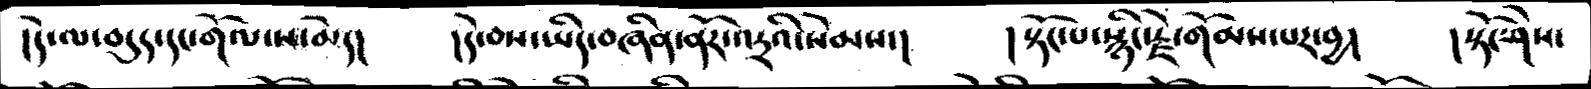།དེ་ལ་བདུད་དང་གོལ་ས་མེད།   །དེ་བས་ཡིད་བཞིན་ནོར་འདྲའི་སེམས་།     །སྟོང་པ་སྙིང་རྫེ་གོམས་པར་བྱ།    །སྟོང་ཤེས་
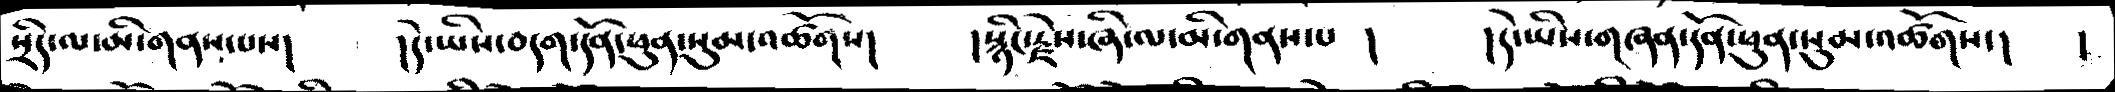སྲིད་ལ་མི་གནས་པས།   །དེ་ཡིས་བདག་དོན་ཕུན་སུམ་འཚོགས།    །སྙིང་རྫེས་ཞི་ལ་མི་གནས་པ །    །དེ་ཡིས་གཞན་དོན་ཕུན་སུམ་འཚོགས་།    །
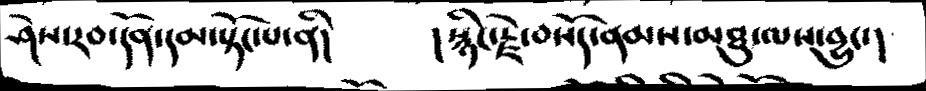ཤེས་རབ་དོན་དམ་སྟོང་པ་ནི།      །སྙིང་རྗེ་བསོད་ནམས་མཐུ་ལས་བྱུང་།
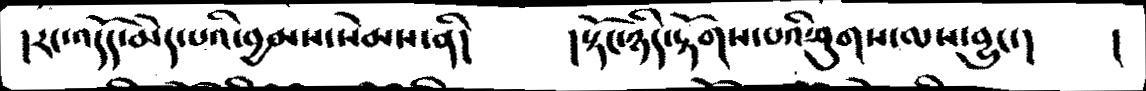།རང་འདོད་མེད་པའི་བྱམས་སེམས་ནི།    །སྟོང་ཉིད་རྟོགས་པའི་ཤུགས་ལས་བྱུང་།   །
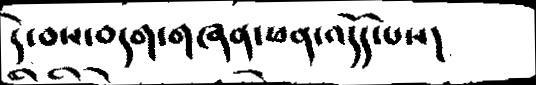དེ་བས་བདག་གཞན་ཕན་འདོད་པས།
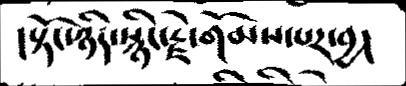།སྟོང་ཉིད་སྙིང་རྗེ་གོམས་པར་བྱ།
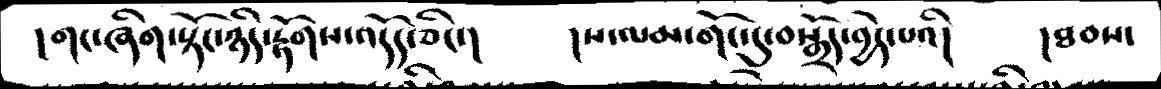།གང་ཞིག་སྟོང་ཉིད་རྟོགས་འདོད་ཅིང་།    །ས་ལམ་གོང་དུ་བསྒྲོད་བྱེད་པའི།   །ཐབས་
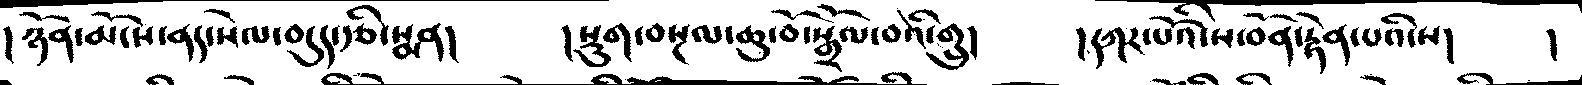། ཉོན་མོངས་ནད་སེལ་བདུད་རྩི་སྨན།    །སྡུག་བསྔལ་ཆུ་བོ་སྒྲོལ་བའི་གྲུ།    །དཀར་པོའི་ས་བོན་རྟེན་པའི་ས།    །
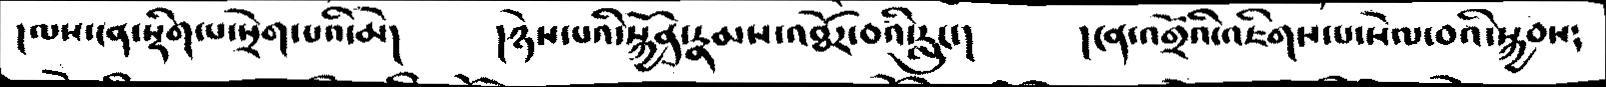།ལས་ངན་སྡིག་པ་སྲེག་པའི་མེ།   །ཉེས་པའི་སྐྱོན་རྣམས་འཐོར་བའི་རླུང་།   །ངན་འགྲོའི་འཇིགས་པ་སེལ་བའི་སྐྱབས༴
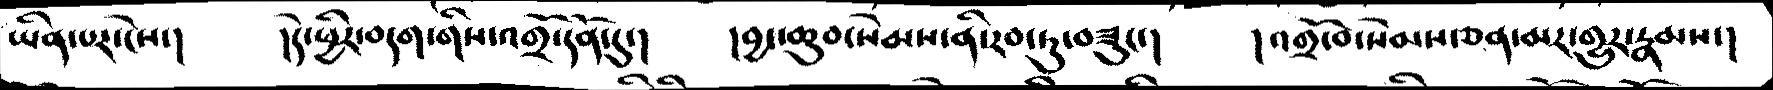ཡིན་པར་ངེས་།   །དེ་ཕྱིར་བདག་གིས་འགྲོ་དོན་དུ་།  །བྱང་ཆུབ་སེམས་ནི་རབ་ཏུ་བཟུང་།   །འགྲོ་བ་སེམས་ཅན་མར་གྱུར་རྣམས་།
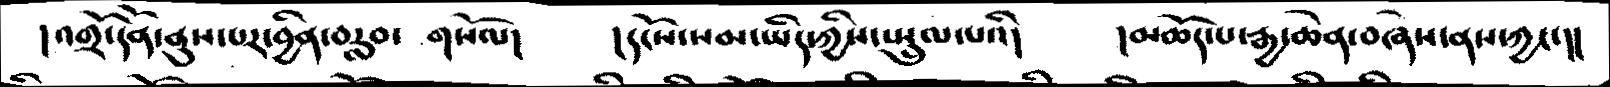།འགྲོ་དོན་ནུས་པར་བྱིན་བརླབ་  གསོལ།    །དངོས་སམ་ཡིད་ཀྱིས་སྤྲུལ་པའི།     །མཆོད་པ་རྒྱ་ཆེན་བཞེས་ནས་ཀྱང་།།
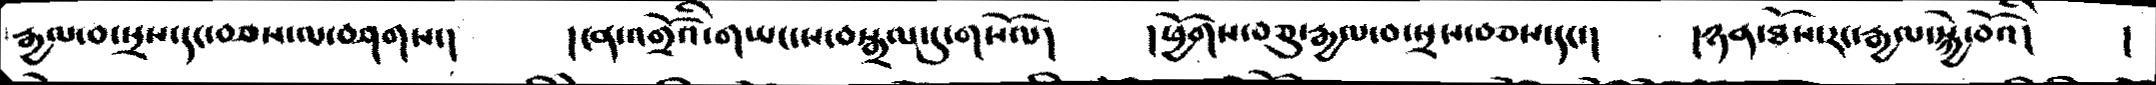རྒྱལ་བ་སྲས་དང་བཅས་ལ་བཤགས་།    །ངན་འགྲོའི་གཡང་ས་བསྒྲལ་དུ་གསོལ།   ཕྱོགས་བཅུ་རྒྱལ་བ་སྲས་བཅས་དང་།    །ཉན་ཐོས་རང་རྒྱལ་སྐྱེ་བོའི།     །
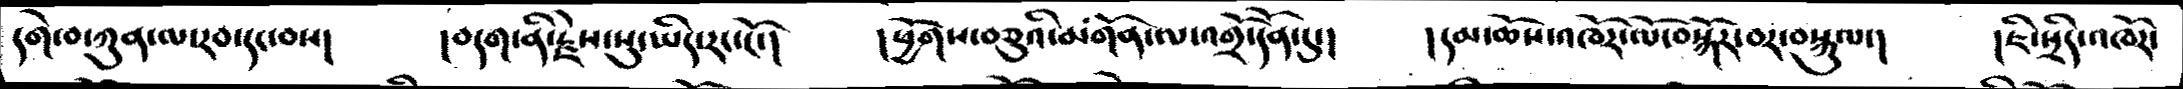དགེ་བ་ཀུན་ལ་རབ་དང་བས།    །བདག་ནི་རྫེས་སུ་ཡིད་རང་ངོ་།     །ཕྱོགས་བཅུའི་མགོན་ལ་འགྲོ་དོན་དུ་།    །དམ་ཆོས་འཁོར་ལོ་བསྐོར་བར་བསྐུལ་།    །ཇི་སྲིད་འཁོར་
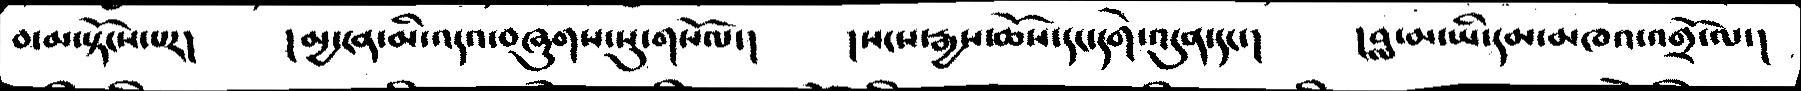བ་མ་སྟོངས་པར་།   །མྱ་ངན་མི་འདའ་བཞུགས་སུ་གསོལ་།   །སངས་རྒྱས་ཆོས་དང་དགེ་འདུན་དང་།   །བླ་མ་ཡི་དམ་མཁའ་འགྲོ་ལ་།
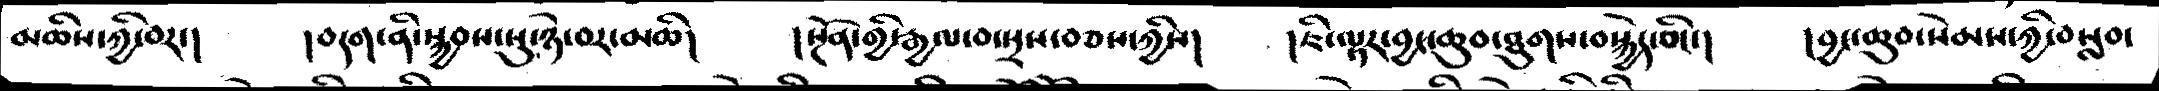མཆིས་ཀྱི་བར་།   །བདག་ནི་སྐྱབས་སུ་ཉེ་བར་མཆི།   །སྔོན་གྱི་རྒྱལ་བ་སྲས་བཅས་ཀྱིས།   །ཇི་ལྟར་བྱང་ཆུབ་ཐུགས་བསྐྱེད་ཅིང་།   །བྱང་ཆུབ་སེམས་ཀྱི་བསླབ་
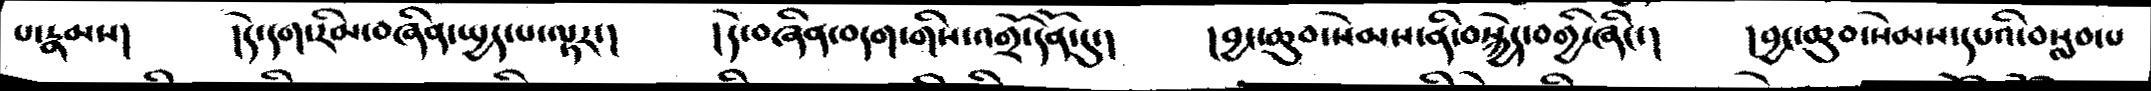པ་རྣམས།   །དེ་དག་རིམ་བཞིན་སྤྱད་པ་ལྟར་།   །དེ་བཞིན་བདག་གིས་འགྲོ་དོན་དུ་།   །བྱང་ཆུབ་སེམས་ནི་བསྐྱེད་བགྱི་ཞིང་།   །བྱང་ཆུབ་སེམས་དཔའི་བསླབ་པ་
